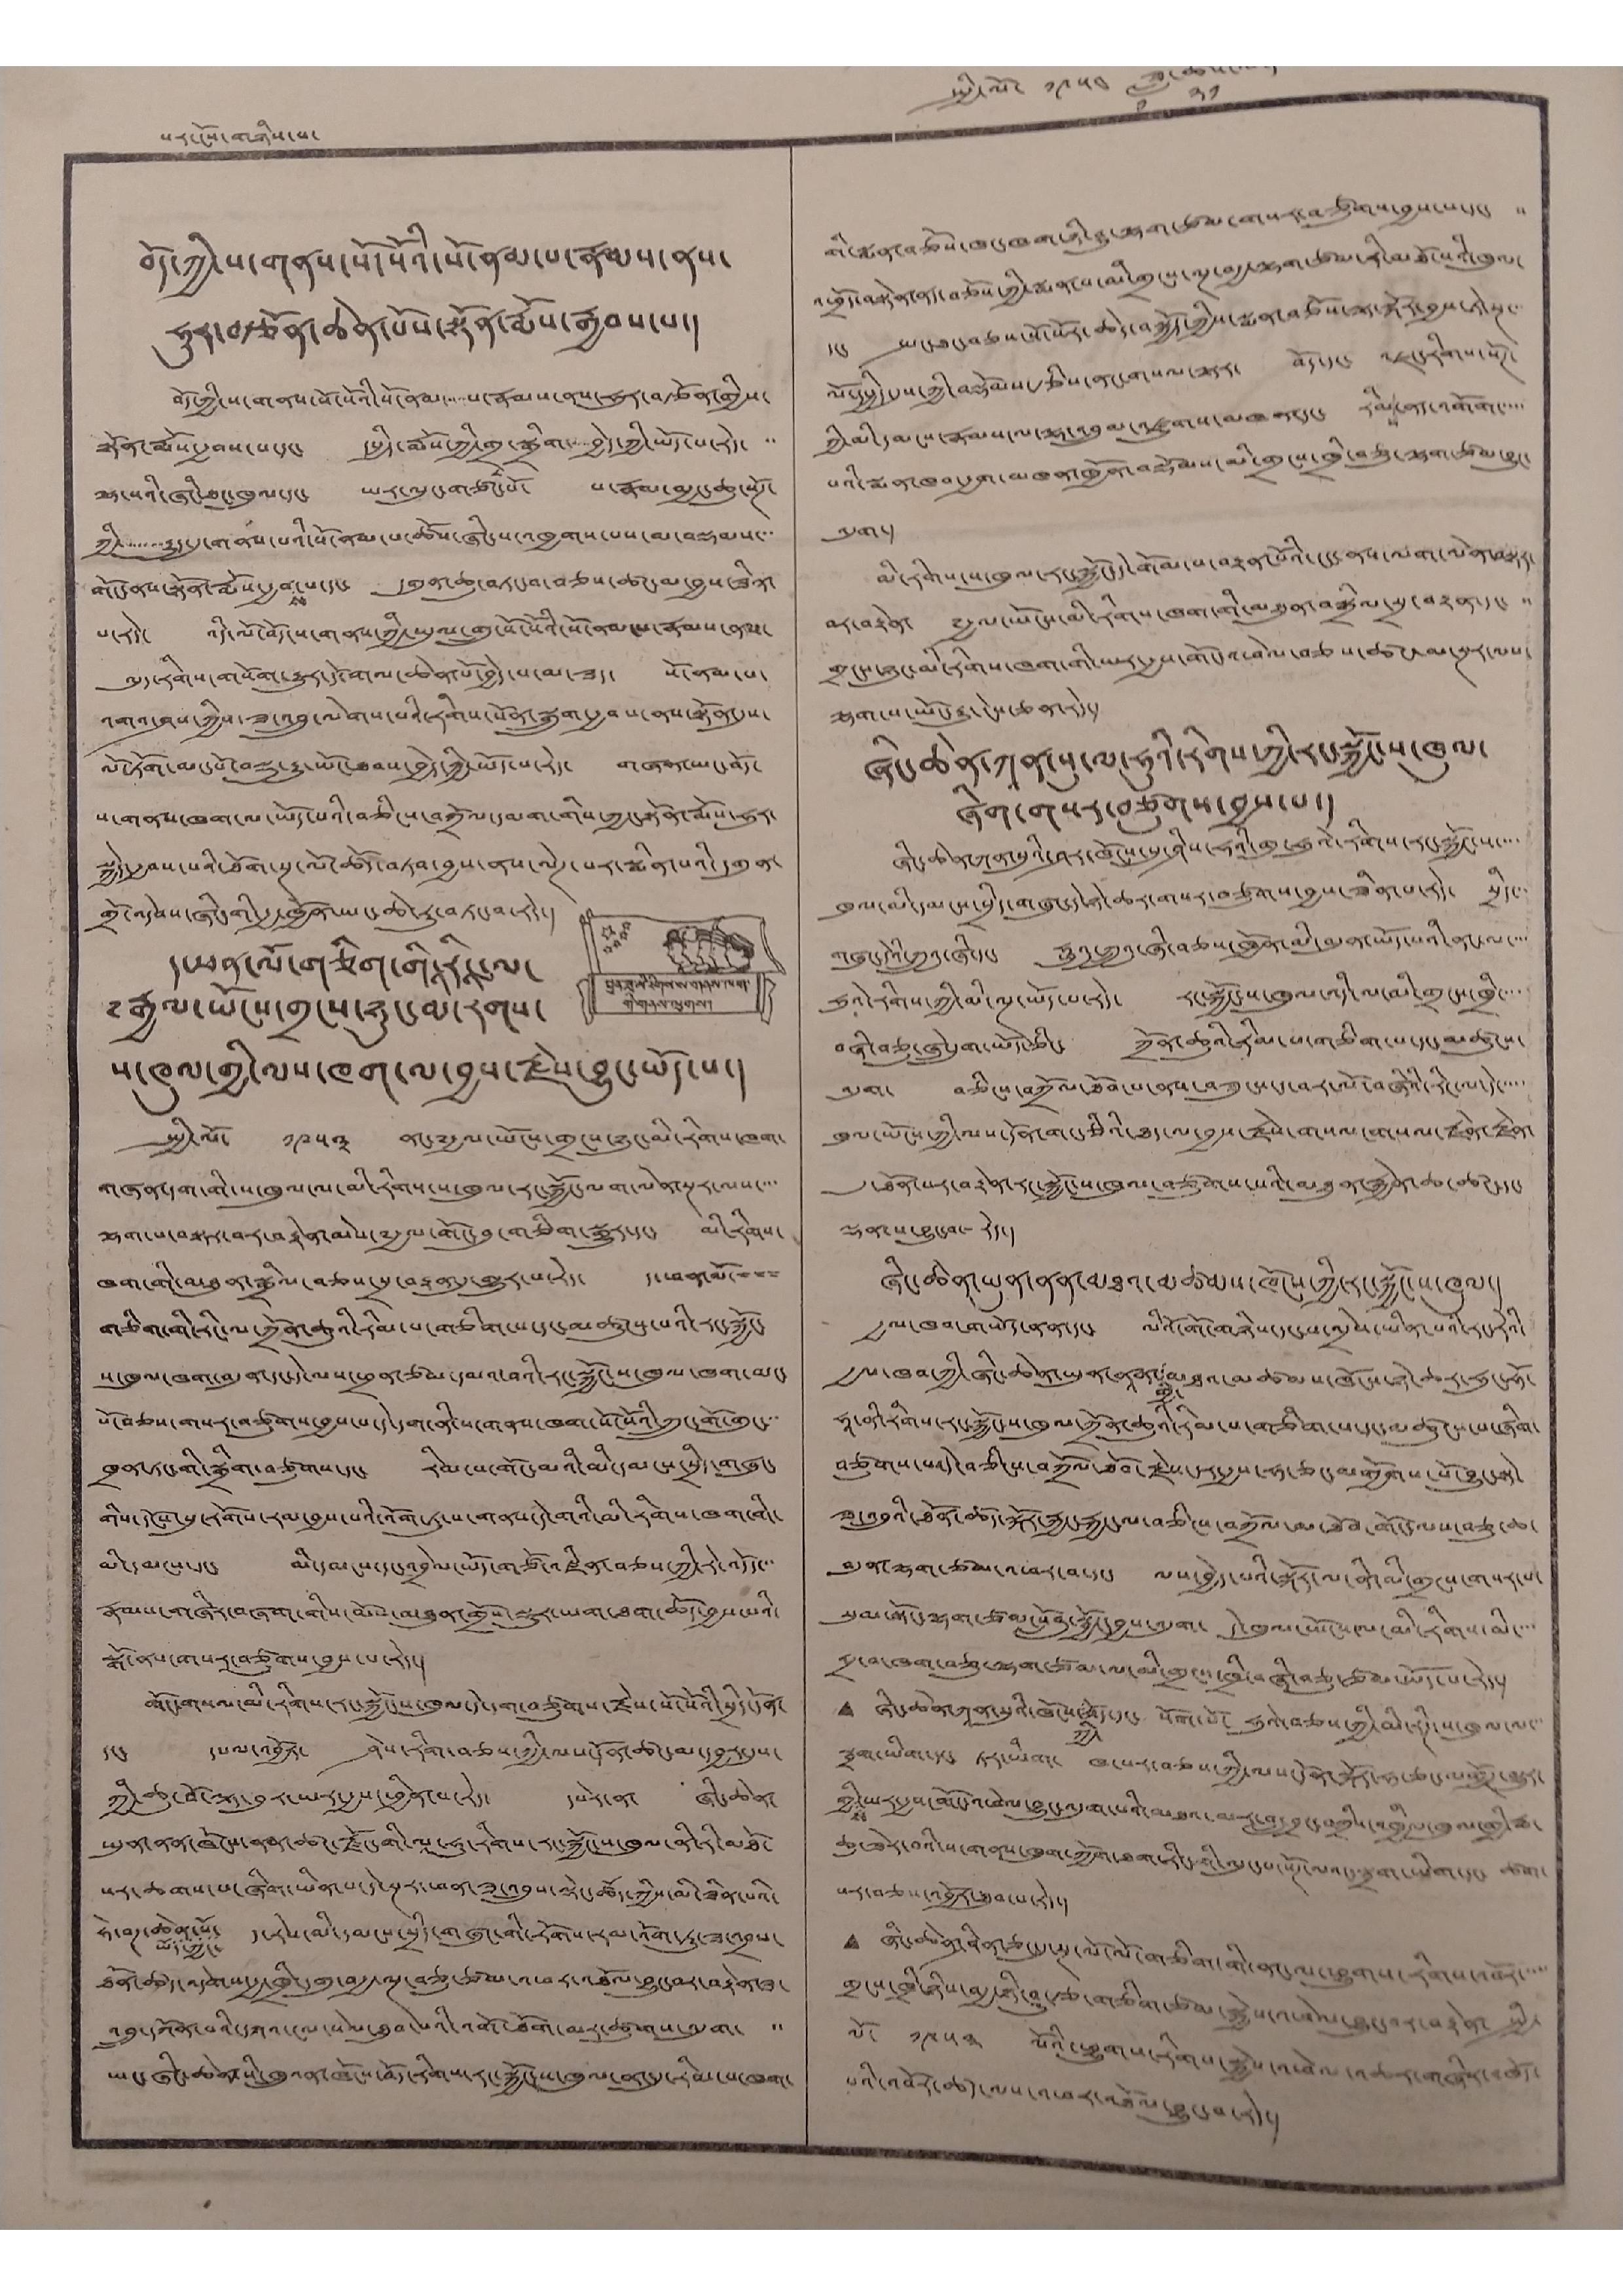པར་ངོས་གཉིས་པ་ ཕྱི་ལོ་ ༡༩༥༤ ཟླ་
༡
ཚེས་
༢༡
བོད་ཀྱི་ས་གནས་སོ་སོའི་སོ་ནམ་པ་རྣམས་ནས་
ཧུར་བརྩོན་ཆེན་པོས་སྟོན་རྨོས་རྒྱབས་པ་།
བོད་ཀྱི་ས་གནས་སོ་སོའི་སོ་ནམ་་་པ་རྣམས་ནས་ཧུར་བརྩོན་གྱིས་
སྟོན་རྨོས་རྒྱབས་པ་དང་ དཔྱིད་རྨོས་ཀྱི་གྲྭ་སྒྲིགས་བྱེད་ཀྱི་ཡོད་པ་རེད་ ་་
ལྷ་སའི་ཞིང་ཐང་ཁུལ་དང་ ཡར་ལུང་གཙང་པོ་ པ་རྣམ་མྱང་ཆུ་སོཊ་
ཀྱི་་་་་་་རྒྱུད་དུ་གནས་པའི་སོ་ནམ་པ་ཚོས་ཞིང་ས་འཁྱགས་པས་མ་བལྡམས་་་
གོང་ནས་སྟོན་རྨོས་རྒྱག
ས
་པ་དང་ དགུན་ཆུ་བཏང་བ་བཅས་ཚང་མ་བྱས་ཟིན་
པ་རེད་ འདི་ལོ་བོད་ས་གནས་ཀྱི་ཡུལ་གྲུ་སོ་སོའི་སོ་ནམ་པ་རྣམས་ནས་
ལུད་རིགས་གསོག་རྒྱུར་དོ་གལ་ཆེན་པོ་བྱེད་པ་མ་ཟད་ སོ་ནམ་པ་
འགའ་ཤས་ཀྱིས་ཟ་འབྲུ་ལེགས་པའི་རིགས་སོན་སྒྲུག་རྒྱབ་པ་ནས་སྟོན་དུས་
ལོ་ཏོག་མང་པོ་བསྡུ་རྒྱུ་ཡོང་ཐབས་བྱེད་ཀྱི་ཡོད་པ་རེད་ གཞན་ཡང་བོད་
ས་གནས་ཁག་ལ་ཡོད་པའི་བཅིངས་བགྲོལ་དམག་གིས་ཀྱང་སྟོན་རྨོས་ཧུར་
སྐྱེད་རྒྱབས་པའི་ཐོག་སྔ་ལོ་ཚོད་བཏབ་བྱས་ནས་ལེཊ་པར་སྨིན་པའི་དགུན་
གྲོ་འདེབས་ཞིང་གི་རྒྱ་ཁྱོན་ཡང་ཆེ་རུ་བཏང་བ་རེད་།
སྤུན་ཟླ་མི་རིགས་ས་གནས་ཁག་
གི་གནས་ལུགས་།
ད་ཕན་ལོ་གཅིག་གི་རིང་ལ་
༸རྒྱལ་ཡོངས་གྲངས་ཉུང་མི་རིགས་
ས་ཁུལ་གྱི་ལས་ཁག་ལ་བྱས་རྗེས་བྱུང་ཡོད་པ་།
སྤྱི་ལོ་ ༩༥༣ ང་༸རྒྱལ་ཡོངས་གྲངས་ཉུང་མི་རིགས་ཁག་
གཞན་དག་གི་ས་ཁུལ་མི་རིགས་ས་ཁུལ་རང་སྐྱོང་ལག་ལེན་སྔར་ལས་་་་
ལྷག་པ་བསྟར་བར་བརྟེན་མེས་༸རྒྱལ་གོང་བུ་གཅིག་སྒྱུར་དང་ མི་རིགས་
ཁག་གི་མཐུན་སྒྲིལ་བཅས་སྲ་བརྟན་དུ་གྱུར་པ་རེད་ ད་ཕན་མོ་་་་
གཅིག་གི་རིང་ལ་ཀྲོན་ཆུའི་རིམ་པ་གཅིག་པ་དང་མཚུངས་པའི་རང་སྐྱོང་
ས་ཁུལ་ཁག་བདུན་དང་དེ་ལས་ཕྲན་ཙམ་དམའ་བའི་རང་སྐྱོང་ས་ཁུལ་ཁག་མང་
པོ་བཅས་གསར་བཙུགས་བྱས་པ་དེ་དག་ནི་ས་གནས་ཁག་སོ་སོའི་ཀྲུང་གོ་གུང་་་
ཁྲན་ཏང་གི་སྒྲིག་བཙུགས་དང་ རིམ་པ་གོང་མའི་མི་དམངས་སརིད་གཞུང་
གིས་དངོས་སུ་རོགས་རམ་བྱས་པའི་འོག་ཏུ་ས་གནས་དེ་གའི་མི་རིགས་ཁག་གི་
མི་དམངས་དང་ མི་དམངས་དང་འབྲེལ་ཡོད་གཙོ་འཛིན་བཅས་ཀྱི་རེ་འདོད་་
རྣམས་གཞིར་བཞག་གིས་མོས་མཐུན་གྲོས་སྡུར་ཡག་ཐག་བྱས་པའི་
སྒོ་ནས་གསར་བཙུགས་བྱས་པ་རེད་།
གོང་གསལ་མི་རིགས་རང་སྐྱོང་ས་ཁུལ་དེ་དག་བཙུགས་རྗེས་སོ་སོའི་སྲིད་དོན་
དང་ དཔལ་འབྱོར་ ཤེས་རིག་བཅས་ཀྱི་ལས་དོན་ཚང་མ་དབྱར་དུས་
ཀྱི་ཆུ་བོ་ལྟ་བུར་ཡར་རྒྱས་ཕྱིན་པ་རེད་ དཔེར་ན་ ཞིང་ཆེན་
ཡུན་ནན་ཁོངས་ནན་ཚང་རྫོང་གི་ལ་ཧུ་རིགས་རང་སྐྱོང་ས་ཁུལ་ནི་རི་མཐོ་
སར་ཆགས་པ་ཞིག་ཡིན་པ་དེ་སྔར་ཕན་ཟ་འབྲུས་ལྡེང་ཚོད་ཀྱིས་མི་ཟིན་པའི་
ཧེ་བཊ་ཆེན་པོ་
ཡོད་ཀྱང་
ད་རེས་མི་དམངས་སྲིད་གཞུང་གི་རོགས་རམ་འོག་ཏུ་ཟ་འབྲས་
ཐོན་ཚད་འདེགས་རྒྱ་ཁྲི་དགུ་བརྒྱ་ལྔ་བཅུ་ཙམ་འཕར་འཐོལ་བྱུང་བར་བརྟེན་ཟ་
འབྲུ་དཀོན་པའི་དཀའ་ངལ་སེལ་ཐུབ་པའི་འགོ་ཐོག་མར་ཚུགས་འདུག་ ་་
ཡང་ཞིང་ཆེན་སི་ཀྲུའན་ཁོངས་བོད་རིགས་རང་སྐྱོང་ས་ཁུལ་ནང་དུ་རིམ་པ་ཁག་
གི་སྨན་བཅོས་ཁང་ཁག་ཉི་ཤུ་ལྷག་ཙམ་གསར་བཙུགས་བྱས་པ་དང་ ་་
འཕྲོད་བསྟེན་ནད་བཅོས་ཀྱི་སྨན་པ་མི་གྲངས་ལྔ་བརྒྱ་ལྷག་ཙམ་རི་མཐོ་སའི་ཁུལ་
དང་ སྤང་ཐང་བཅས་སོ་སོར་ཆེད་བསྐྱོད་ཀྱིས་སྨན་བཅོས་ལྟ་སྐོར་བྱས་ཏེ་སྔ་་
ལོ་དཔྱིད་དུས་ཀྱི་བལྡོམས་རྩིས་ནང་གསལ་ལྟར་ བོད་དང་ འཇང་རིགས་སོཊ་
ཀྱི་མི་དམངས་རྣམས་ལ་ལྷ་འབུམ་འཛུགས་མཁན་དང་ རིམ་ནད་འགོག་་་་་
ས་
པའི་སྨན་ཁབ་རྒྱག་མཁན་ཁྱོན་བསྡོམས་མི་གྲངས་ཁྲི་བཅུ་ལྷག་ཙམ་བྱུང་
འདུག་།
མི་རིགས་ས་ཁུལ་རང་སྐྱོང་དེ་གོམ་པ་བསྟན་པོའི་ངང་ནས་ལག་ལེན་བསྟར་
བར་བརྟེན་ ༸རྒྱལ་ཡོངས་མི་རིགས་ཁག་གི་མཐུན་བསྒྲིལ་སྲ་བརྟན་དང་ ་་
གྲངས་ཉུང་མི་རིགས་ཁག་གི་ཡར་རྒྱས་གོང་འཕེལ་བཅས་ཚང་མ་སྔར་ལས་
ལྷག་པ་ཡོང་རྒྱུ་ངེས་ཅན་རེད་།
ཞིངག་ཆེན་ཀཱན་སུ་ལ་ཧུའི་རིགས་ཀྱི་རང་སྐྱོང་ས་ཁུལ་
ཞིག་གསར་བཙུགས་བྱས་པ་།
ཞིང་ཆེན་ཀཱན་སུའི་ཤར་ཁོངས་སུ་ཤིས་ཧའི་ག་ཧུའེ་རིགས་རང་སྐྱོང་ས་་་་
ཁུལ་མི་དམངས་སྲིད་གཞུང་དེ་ཉེ་ཆར་གསར་བཙུགས་བྱས་ཟིན་ཟིན་པ་རེད་ སྲིད་་་
གཞུང་དེའི་ཀྲུའུ་ཞི་དང་ ཧྥུའུ་ཀྲུའུ་ཞི་བཅས་ཁྱོན་མི་བདུན་ཡོད་པའི་ནང་ལ་་་་
ཧུའེ་རིགས་ཀྱི་མི་ལྔ་ཡོད་པ་རེད་ རང་སྐྱོང་ས་ཁུལ་འདི་ལ་མི་གྲངས་ཁྲི་་་་
བཞི་བཅུ་ཞེ་དྲུག་ཡོད་ཅིང་ ཀྲོན་ཆུའི་རིམ་པ་གཅིག་པ་དང་མཚུངས་
འདུག་ བཅིངས་བཀྲོལ་ཐོབ་པ་ནས་བཟུངས་ད་བར་ལོ་བཞིའི་རིང་ལ་དེ་་་་་
ཁུལ་ཡོངས་ཀྱི་ལས་དོན་གང་ཅིའི་ཐད་ལ་བྱས་རྗེས་གསལ་གསལ་རྗེན་རྗེན་
དུ་ཐོན་པར་བརྟེན་རང་སྐྱོང་ས་ཁུལ་བཙུགས་པའི་མཐུན་རྐྱེན་ཆ་ཚང་དང་
ལྡན་པ་བྱུང་བ་-རེད་།
ཞིང་ཆེན་ཡུན་ནན་མཐའ་མཚམས་ཁོངས་ཀྱི་རང་སྐྱོང་ས་ཁུལ་།
རྒྱལ་ཁབ་གཡོད་ནན་དང་ ལིའོ་གོ་གཉིས་དང་ས་འདྲེས་ཡིན་པའི་རང་རེའི་
རྒྱལ་ཁབ་ཀྱི་ཞིང་ཆེན་ཡུན་ནན་མཐའ་མཚམས་ཁོངས་ཉེ་ཆར་ཧུང་ཧོ་
གྱི་
ཧཱ་ནི་རིགས་རང་སྐྱོང་ས་ཁུལ་ཀྲོན་ཆུའི་རིམ་པ་གཅིག་པ་དང་མཚུངས་པ་ཞིག་
བཙུགས་པ་དེ་བཅིངས་བཀྲོལ་ཐོབ་རྗེས་དར་རྒྱས་ཧ་ཅང་མགྱོགས་པོ་བྱུངསཏེ་
ཟླ་འབྲུའི་ཐོན་ཚད་སྐོར་རྐྱང་རྐྱང་ལ་བཅིངས་བཀྲོལ་མ་ཐོབ་གོང་ལས་བཅུ་ཆ་
བདུན་ལྷག་ཙམ་འཕར་བ་དང་ ལས་བྱེད་པའི་སྐོར་ལ་ནི་མི་གྲངས་གསར་པ་
སུམ་སྟོང་ལྷག་ཙམ་སློབ་སྦྱོང་བྱས་འདུག་ དེ་ཁུལ་ཡོང་ལ་མི་རིགས་མི་་་་
འདྲ་བ་ཁག་བཅུ་ལྷག་ཙམ་ལ་མི་གྲངས་ཁྲི་བཞི་བཅུ་ཙམ་ཡོད་པ་རེད་།
• ཞིང་ཆེན་ཀཱན་སུའི་ཁོངས་
ཀྱི་
བོད་དང་ སོག་པོ་ ཧུའེ་བཅས་ཀྱི་མི་རིཊ་ས་ཁུལ་ལ་་་
སྦྲག་ཡིག་དང་ ཏར་ཡིག་ ཁ་པར་བཅས་ཀྱི་ལས་དོན་སྐོར་ཧ་ཅང་མགྱོཊ་མྱུར་
གྱི་ཡར་རྒྱས་གོང་འཕེལ་བྱུང་འདུག་པའི་མཐའ་མར་བླ་བྲང་བཀྲིས་འཁྱིལ་ཁུལ་གྱི་རྨ་
ས
ཆུ་ཟེར་བའི་ས་གནས་ཁུག་ཀྱོག་ཐག་རིང་གི་ལུང་པ་སོཊ་ལའང་སྦྲག་ཡིག་དང་ ཚག་
པར་བཅས་འབྱོར་ཐུབ་པ་རེད་།
• ཞིང་ཆེན་ཤིན་ཅང་དུ་སྔ་ལོ་ལོ་གཅིག་གི་ནང་ལ་ཕྱུགས་རིགས་འབོར་་་་་
གྲངས་ཁྲི་ཉིས་བརྒྱ་ཉི་ཤུ་རྩ་གཅིག་ཙམ་སྐྱེས་འཕེལ་བྱུང་བར་བརྟེན་ སྤྱི་
ལོ་༡༩༥༣་ལོའི་ཕྱུགས་རིགས་སྐྱེས་འཕེལ་འཆར་གཞིན་འཁོད་
ྤའི་འབོར་ཚད་ལས་འཕར་འཐོལ་བྱང་པ་རེད་།
